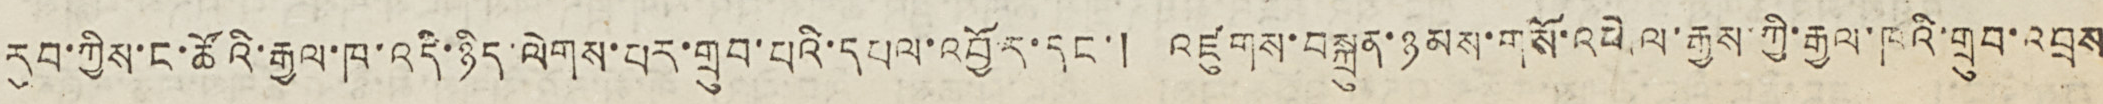རུབ་ཀྱིས་ང་ཚོའི་རྒྱལ་ཁ་འདི་ཉིད་ལེགས་པར་གྲུབ་པའི་དཔལ་འབྱོར་དང་། འཛུགས་བསྐྲུན་ཉམས་གསོ་འཕེལ་རྒྱས་ཀྱི་རྒྱལ་ཁའི་གྲུབ་འབྲས
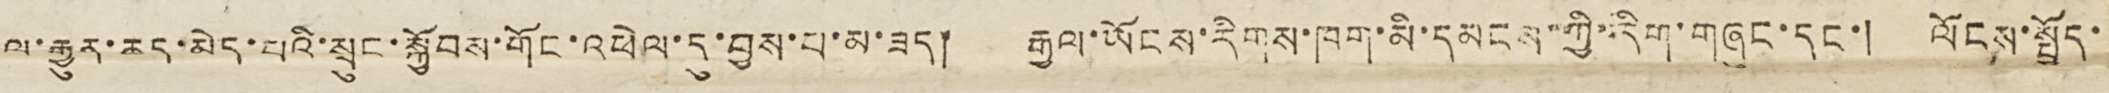ལ་རྒྱུར་ཆད་མེད་པའི་སྲུང་སྐྱོབས་གོང་འཕེལ་དུ་བྱས་པ་མ་ཟད། རྒྱལ་ཡོངས་རིགས་ཁག་མི་དམངས་ཀྱི་རིག་གཞུང་དང་། ལོངས་སྤྱོད་
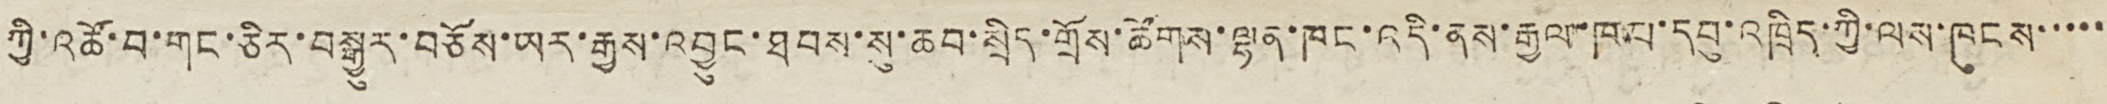ཀྱི་འཚོ་བ་གང་ཅིར་བསྒྱུར་བཅོས་ཡར་རྒྱས་འབྱུང་ཐབས་སུ་ཆབ་སྲིད་གྲོས་ཚོགས་ལྷན་ཁང་འདི་ནས་རྒྱལ་ཁབ་དབུ་འཁྲིད་ཀྱི་ལས་ཁུངས་་་་་
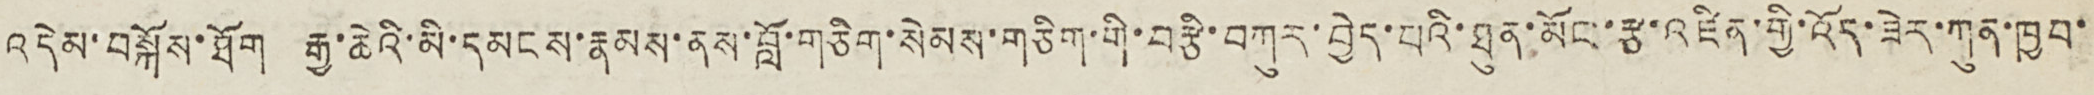འདེམ་བསྐོས་ཐོག རྒྱ་ཆེའི་མི་དམངས་རྣམས་ནས་བློ་གཅིག་སེམས་གཅིག་གི་བརྩི་བཀུར་བྱེད་པའི་ཐུན་མོང་རྩ་འཛིན་གྱི་འོད་ཟེར་ཀུན་ཁྱབ་
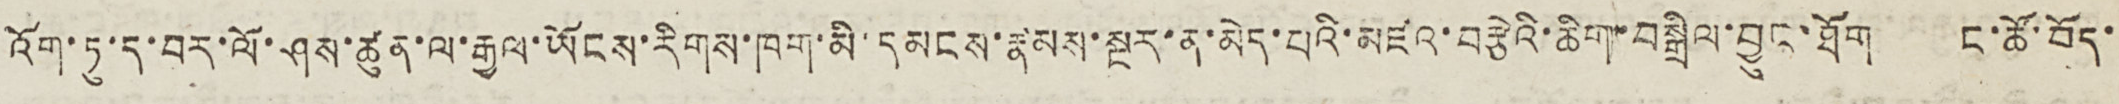འོག་ཏུ་ད་བར་ལོ་ཤས་ཚུན་ལ་རྒྱལ་ཡོངས་རིགས་ཁག་མི་དམངས་རྣམས་སྔར་ན་མེད་པའི་མཛའ་བརྩེའི་ཆིག་བསྒྲིལ་བྱུང་ཐོག ང་ཚོ་བོད་
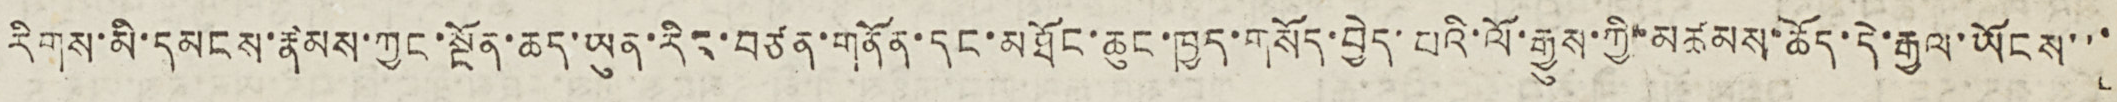རིགས་མི་དམངས་རྣམས་ཀྱང་སྔོན་ཆད་ཡུན་རིང་བཙན་གནོན་དང་མཐོང་ཆུང་ཁྱད་གསོད་བྱེད་པའི་ལོ་རྒྱུས་ཀྱི་མཚམས་ཆོད་དེ་རྒྱལ་ཡོངས་་་
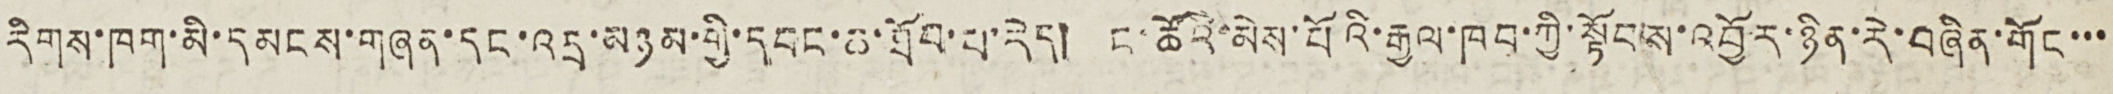རིགས་ཁག་མི་དམངས་གཞན་དང་འདྲ་མཉམ་གྱི་དབང་ཆ་ཐོབ་པ་རེད། ང་ཚོའི་མེས་པོའི་རྒྱལ་ཁབ་ཀྱི་སྟོབས་འབྱོར་ཉིན་རེ་བཞིན་གོང་་་
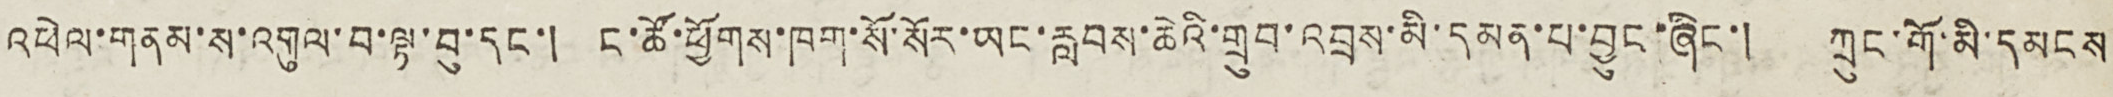འཕེལ་གནམ་ས་འགུལ་བ་ལྟ་བུ་དང་། ང་ཚོ་ཕྱོགས་ཁག་སོ་སོར་ཡང་རླབས་ཆེའི་གྲུབ་འབྲས་མི་དམན་པ་བྱུང་ཞིང་། ཀྲུང་གོ་མི་དམངས
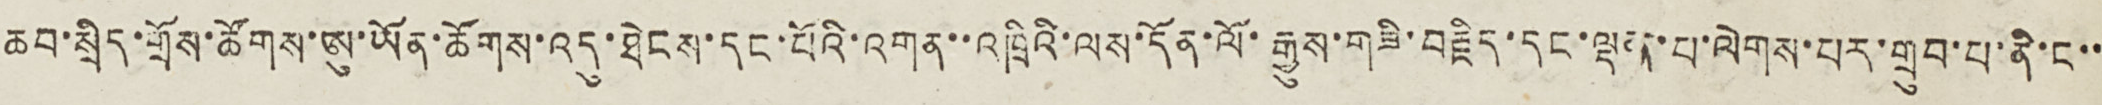ཆབ་སྲིད་གྲོས་ཚོགས་ཨུ་ཡོན་ཚོགས་འདུ་ཐེངས་དང་པོའི་འགན་་འཁྲིའི་ལས་དོན་ལོ་རྒྱུས་གཟི་བརྗིད་དང་ལྡན་པ་ལེགས་པར་གྲུབ་པ་ནི་ང་་
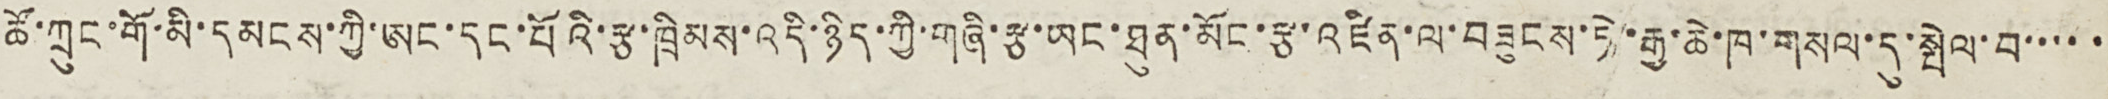ཚོ་ཀྲུང་གོ་མི་དམངས་ཀྱི་ཨང་དང་པོའི་རྩ་ཁྲིམས་འདི་ཉིས་ཀྱི་གཞི་རྩ་ཡང་ཐུན་མོང་རྩ་འཛིན་ལ་བཟུངས་ཏེ་རྒྱ་ཆེ་ཁ་གསལ་དུ་སྤེལ་བ་་་་་
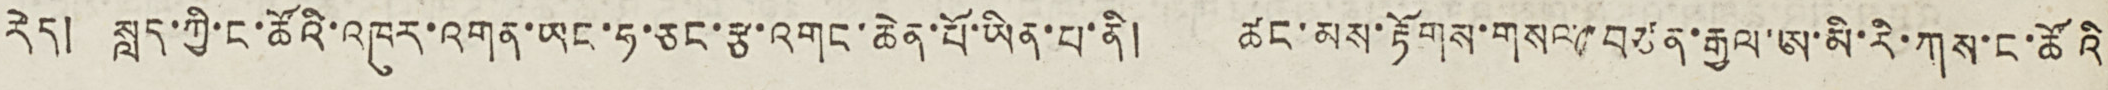རེད། སླད་ཀྱི་ང་ཚོའི་འཁུར་འགན་ཡང་ཧ་ཅང་རྩ་འགང་ཆེན་པོ་ཡིན་པ་ནི། ཚང་མས་རྟོགས་གསལ་བཙན་རྒྱལ་ཨ་མི་རི་ཀས་ང་ཚོའི
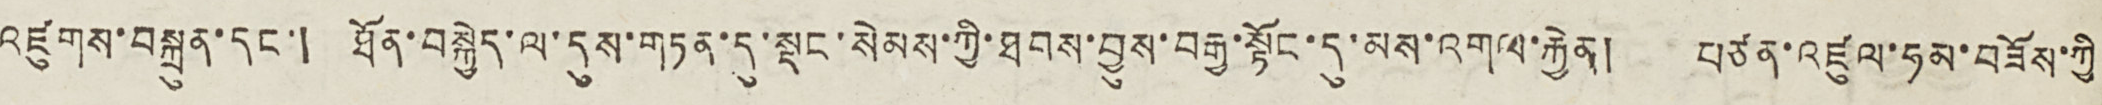འཛུགས་བསྐྲུན་དང་། ཐོན་བསྐྱེད་ལ་དུས་གཏན་དུ་སྡང་སེམས་ཀྱི་ཐབས་བྱུས་བརྒྱ་སྟོང་དུ་མས་འགལ་རྐྱེན། བཙན་འཛུལ་ཧམ་བཟོས་ཀྱི
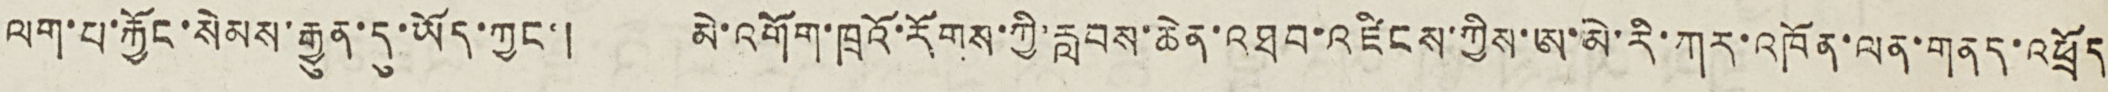ལག་པ་རྐྱོང་སེམས་རྒྱུན་དུ་ཡོད་ཀྱང་། མེ་འགོག་ཁྲའོ་རོགས་ཀྱི་རླབས་ཆེན་འཐབ་འཛིངས་ཀྱིས་ཨ་མེ་རི་ཀར་འཁོན་ལན་གནད་འཕྲོད
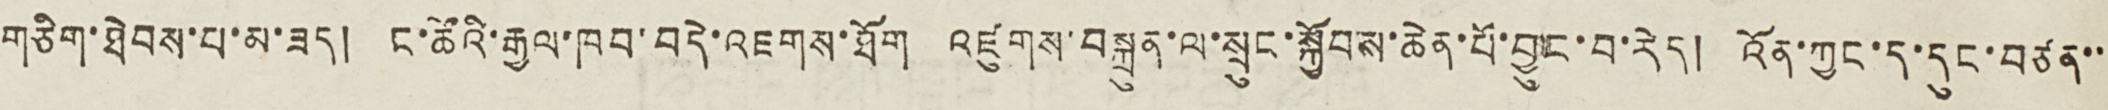གཅིག་ཐེབས་པ་མ་ཟད། ང་ཚོའི་རྒྱལ་ཁབ་བདེ་འཇགས་ཐོག འཛུགས་བསྐྲུན་ལ་སྲུང་སྐྱོབས་ཆེན་པོ་བྱུང་བ་རེད། འོན་ཀྱང་ད་དུང་བཙན་་
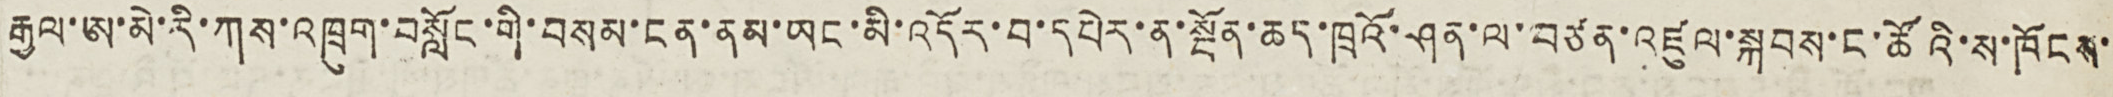རྒྱལ་ཨ་མེ་རི་ཀས་འཁྲུག་བསློང་གི་བསམ་ངན་ནམ་ཡང་མི་འདོར་བ་དཔེར་ན་སྔོན་ཆད་ཁྲའོ་ཤན་ལ་བཙན་འཛུལ་སྐབས་ང་ཚོའི་ས་ཁོངས་
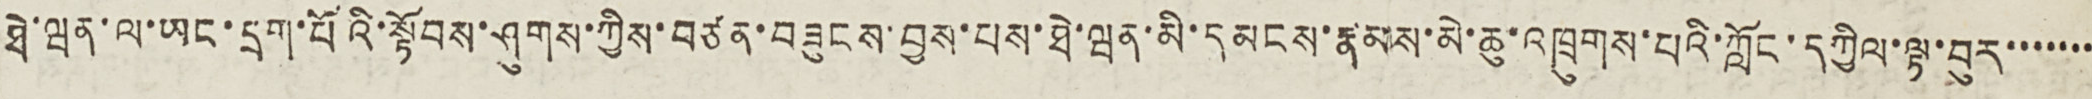ཐེ་ཝན་ལ་ཡང་དྲག་པོའི་སྟོབས་ཤུགས་ཀྱིས་བཙན་བཟུངས་བྱས་པས་ཐེ་ཝན་མི་དམངས་རྣམས་མེ་ཆུ་འཁྲུགས་པའི་ཀློང་དཀྱིལ་ལྟ་བུར་་་་་་་
